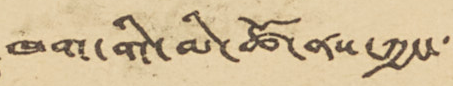ཁག་གི་མི་ཚོ་ནས་ཀྱང་་་
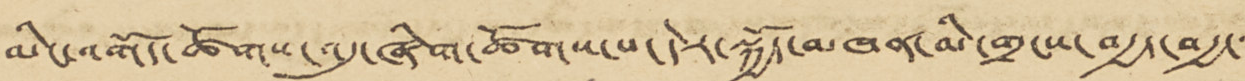མིང་འགོད་ཚོགས་འདུ་ཞིག་ཚོགས་པ་དེར་སྐྱོད་མཁན་མི་གྲངས་བརྒྱད་བརྒྱ་་་
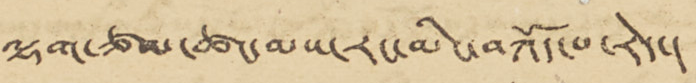ལྷག་ཙམ་ཚང་མས་རང་མིང་བཀོད་པ་རེད་།
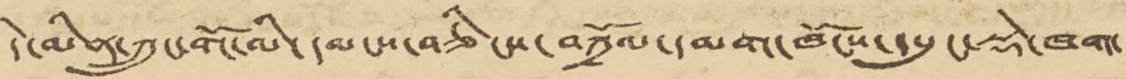དེ་མིན་ཀྲུང་གོ་མི་དམངས་བཅིངས་བཀྲོལ་དམག་ཁོངས་དཔུང་སྡེ་ཁག་
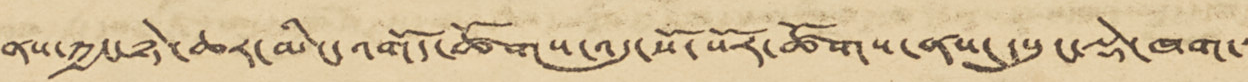ནས་ཀྱང་ཉེ་ཆར་མིང་འགོད་ཚོགས་འདུ་སོ་སོར་ཚོགས་ནས་དཔུང་སྡེ་ཁག་་
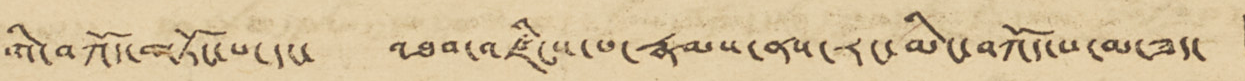གི་བཀོད་གཏོང་པ་དང་ འཐབ་འཛིངས་པ་རྣམས་ནས་རང་མིང་བཀོད་པ་མ་ཟད་ །
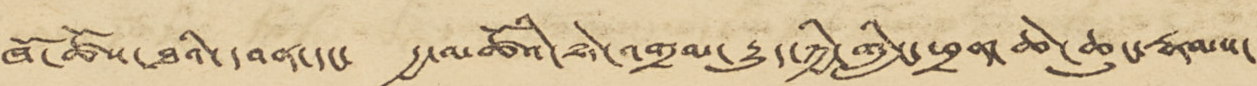ཁོ་ཚོས་ཐའི་དབན་དང་ རྒྱ་མཚོའི་ཉེ་འགྲམ་རྒྱུད་ཀྱི་གླིང་ཕྲན་ཆེ་ཆུང་རྣམས་
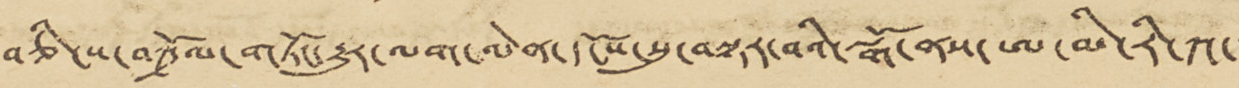བཅིངས་བཀྲོལ་གཏོང་རྒྱུར་ལག་ལེན་དངོས་སུ་བསྟར་བའི་སྒོ་ནས་ཨ་མི་རི་ཀ་་
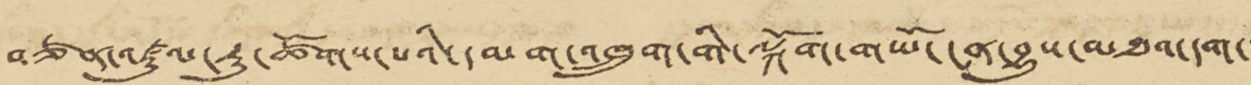བཙན་འཛུལ་རུ་ཚོགས་པའི་དམག་འཁྲུག་གི་ལྐོག་གཡོ་ངན་བྱུས་མཐའ་དག་
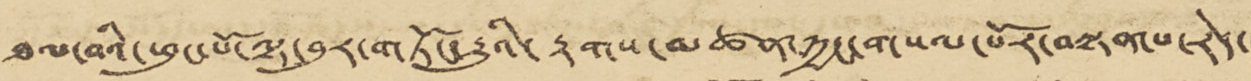ཐལ་བའི་ཕུང་པོ་ལྟ་བུར་གཏོང་རྒྱུའི་རྟགས་མཚན་ཀྱང་གསལ་པོར་བསྟན་པ་རེད་།
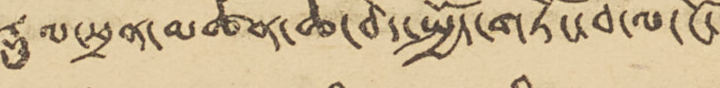རྡུལ་ཕྲན་མཚོན་ཆ་བེད་སྤྱོད་གཏོང་བ་ལ་ངོ་་་
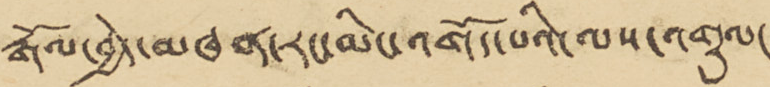རྒོལ་བྱེད་མཁན་རང་མིང་འགོད་པའི་ལས་འགུལ་
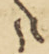དེ་
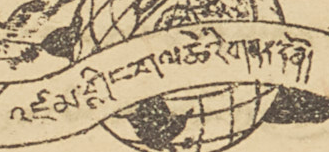འཛམ་གླིང་གལ་ཆེའི་གནད་དོན།
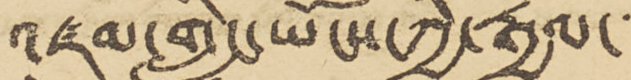འཛམ་གླིང་ཡོངས་ཀྱི་རྒྱལ་་་་
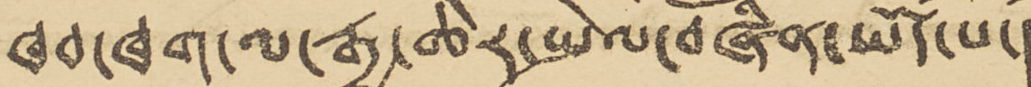ཁབ་ཁག་ལ་རྒྱ་ཆེར་སྤེལ་བཞིན་ཡོད་པ་།
